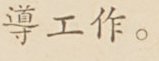導工作。
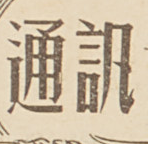通訊
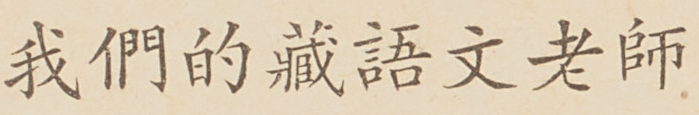我們的藏語文老師
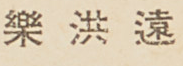樂 洪 遠
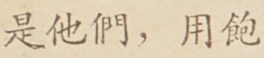是他們，用飽
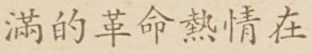滿的革命熱情在
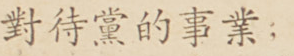對待黨的事業；
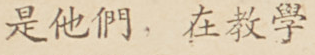是他們，在教學
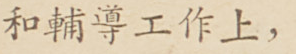和輔導工作上，
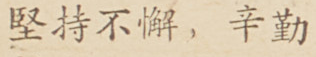堅持不懈，辛勤
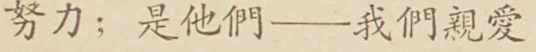努力；是他們——我們親愛
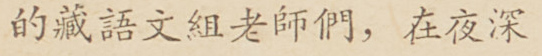的藏語文組老師們，在夜深
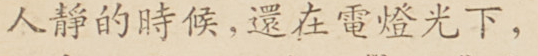人精的時候，還在點燈光下，
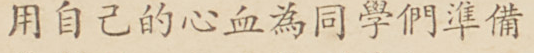用自己的心血為同學們準備
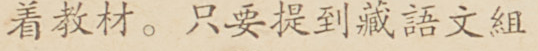着教材。只要提到藏語文組
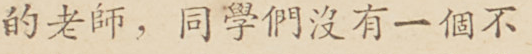的老師，同學們沒有一個不
